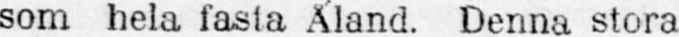som hela fasta Åland. Denna stora
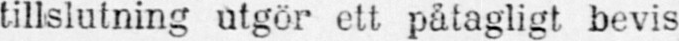tillslutning utgör ett påtagligt bevis
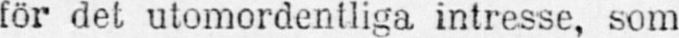för det utomordentliga intresse, som
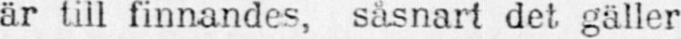är till finnandes, säsnart det gäller
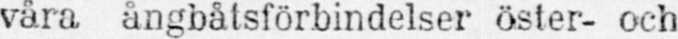våra ångbåtsförbindelser öster- och
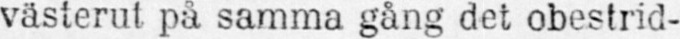västerut på samma gång det obestrid-
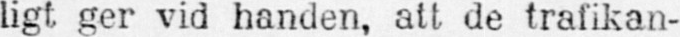ligt ger vid handen, att de trafikan-
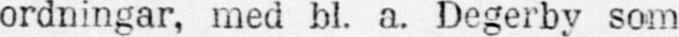ordningar, med bl. a. Degerby som
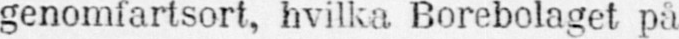genomfartsort, hvilka Borebolaget på
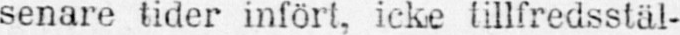senare tider infört, icke tillfredsstäl-
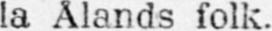la Ålands folk.
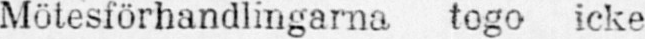Mötesförhandlingarna togo icke
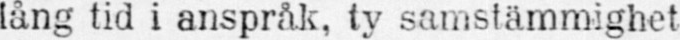lång tid i anspråk, ty samstämmighet
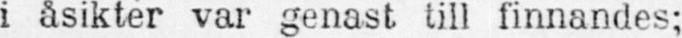i åsikter var genast till finnandes;
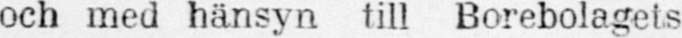och med hänsyn till Borebolagets
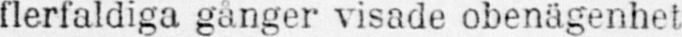flerfaldiga gånger visade obenägenhet
